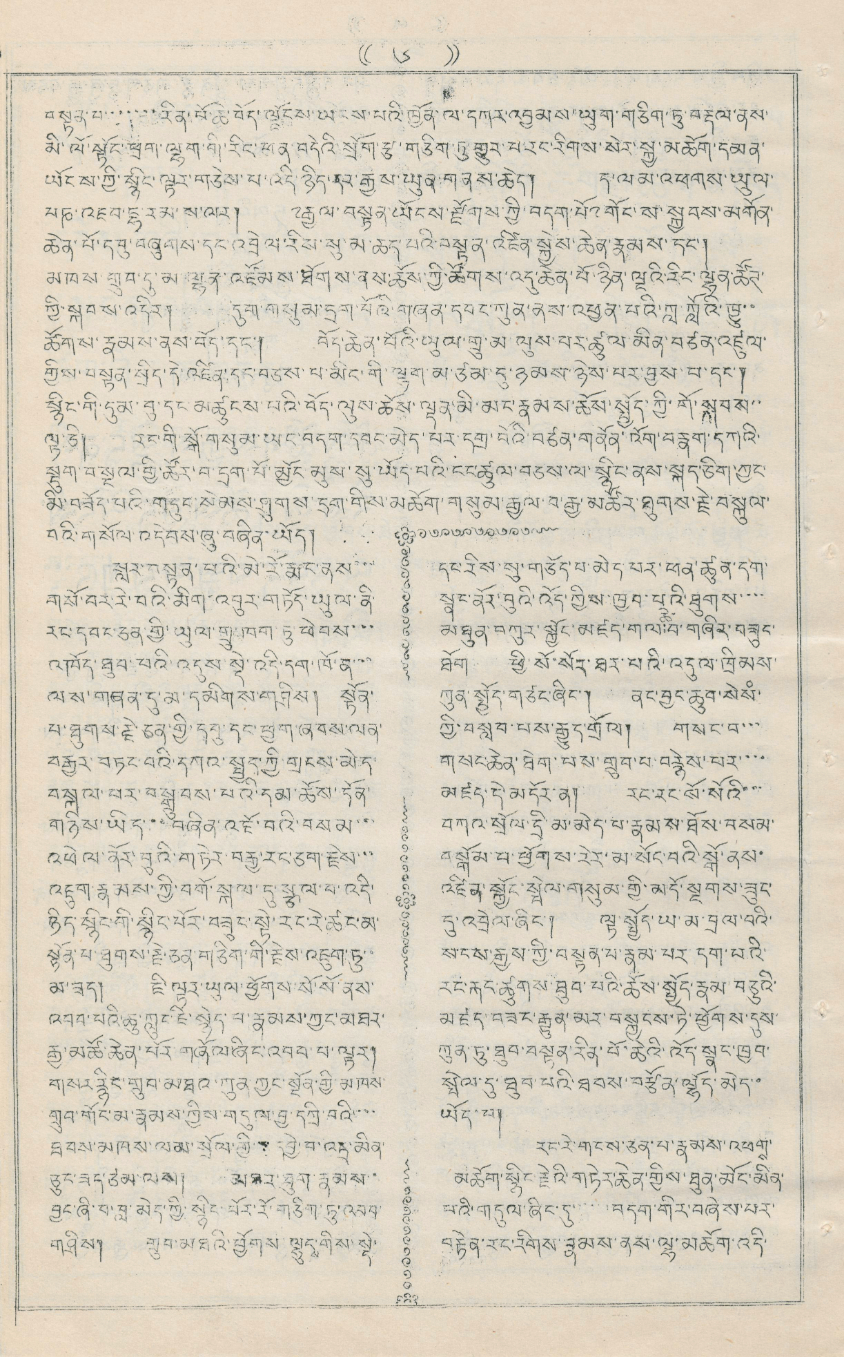((༦ ))
བསྟན་པ་་་་་་་རིན་པོ་ཆེ་བོད་ལྗོངས་ཡངས་པའི་ཁྱོན་ལ་དཀར་འབྱམས་ཡུག་གཅིག་ཏུ་བརྡུལ་ནས་
མི་ལོ་སྟོང་ཕྲག་ལྷག་གི་རིང་ཕན་བདེའི་སྲོག་རྩ་གཅིག་ཏུ་གྱུར་པ་རང་རིགས་སེར་སྐྱ་མཆོག་དམན་
ཡོངས་ཀྱི་སྙིང་ལྟར་གཅེས་པ་འདི་ཉིད་དར་རྒྱས་ཡུན་གནས་ཆེད། ད་ལམ་འཕགས་ཡུལ་
ལཎ་འཇབ་དྷ་རམ་ས་ལར། ༸རྒྱལ་བསྟན་ཡོངས་རྫོགས་ཀྱི་བདག་པོ་༸གོང་ས་སྐྱབས་མགོན་
ཆེན་པོ་དབུ་བཞུགས་དང་འབྲེལ་རིས་སུ་མ་ཆད་པའི་བསྟན་འཛིན་སྐྱེས་ཆེན་རྣམས་དང་།
མཁས་གྲུབ་དུ་མ་ལྷན་འཛོམས་ཐོགས་ནས་ཆོས་ཀྱི་ཚོགས་འདུ་ཆེན་པོ་ཉིན་ལྔའི་རིང་ལྷན་ཚོཊ་
ཀྱི་སྐབས་འདིར། དུག་གསུམ་དྲག་པོའི་གཞན་དབང་ཀུན་ནས་འཕྱན་པའི་ཀླ་ཀློའི་ཁྱུ་་
ཚོགས་རྣམས་ནས་བོད་དང་། བོད་ཆེན་པོའི་ཡུལ་གྲུ་མ་ལུས་པར་ཚུལ་མིན་བཙན་འཛུལ་
གྱིས་བསྟན་སྲིད་དེ་འཛིན་དང་བཅས་པ་མིང་གི་ལྷག་མ་ཙམ་དུ་ཉམས་ཉེས་པར་བྱས་པ་དང་།
སྙིང་གི་ཏུམ་བུ་དང་མཚུངས་པའི་བོད་ལུས་ཆོས་ལྡན་མི་མང་རྣམས་ཆོས་སྤྱོད་ཀྱི་གོ་སྐབས་་
ལྟ་ཅི། རང་གི་སྒོ་གསུམ་ཡང་བདག་དབང་མེད་པར་དགྲ་བོའི་བཙན་གནོན་འོག་བརྣག་དཀའི་
སྦུག་བསྔལ་གྱི་ཚོར་བ་དྲག་པོ་མྱོང་མུས་སུ་ཡོད་པའི་ངང་ཚུལ་བཅས་ལ་སྙིང་ནས་སྐད་ཅིག་ཀྱང་
མི་བཟོད་པའི་གདུང་སེམས་ཤུགས་དྲག་གིས་མཆོག་གསུམ་རྒྱལ་བ་རྒྱ་མཚོའི་ཐུགས་རྗེ་བསྐུལ་
བའི་གསོལ་འདེབས་ཞུ་བཞིན་ཡོད།
སླར་བསྟན་པའི་མེ་རོ་རྨང་ནས་་་
གསོ་བར་རེ་བའི་མིག་འབུར་གཏོད་ཡུལ་ནི།
རང་དབང་ཅན་གྱི་ཡུལ་གྲུ་ཁག་ཏུ་ཕེབས་་་
འཁོད་ཐུབ་པའི་འདུས་སྡེ་འདི་དག་ཁོ་ན་་་
ལས་གཞན་དུ་མི་དམིགས་གཤིས། སྟོན་
པ་ཐུགས་རྗེ་ཅན་གྱི་དགུ་དང་ཕྱག་ཞབས་ལེན་
བརྒྱར་བཏང་བའི་དཀའ་སྤྱད་ཀྱི་གྲངས་མེད་
བསྐལ་བར་བསྒྲུབས་པའི་དམ་ཆོས་དོན་
གཉིས་ཡིད་་་བཞིན་འཇོ་བའི་བསམ་་་
འཕེལ་ནོར་བུའི་གཏེར་བརྒྱ་རང་ཅིག་རྗེས་་་
འཇུག་རྣམས་ཀྱི་བགོ་སྐལ་དུ་སྩལ་བ་འདི་
ཉིད་སྙིང་གི་སྙིང་པོར་བཟུང་སྟེ་རང་རེ་ཚང་མ་
སྟོན་པ་ཐུགས་རྗེ་ཅན་གཅིག་གི་རྗེས་འཇུག་ཏུ་་
མ་ཟད། ཇི་ལྟར་ཡུལ་ཕྱོགས་སོ་སོ་ནས་
འབབ་པའི་ཆུ་ཀླུང་ཇི་སྙེད་པ་རྣམས་ཀྱང་མཐར་
རྒྱ་མཚོ་ཆེན་པོར་གཞོལ་ཞིང་འབབ་པ་ལྟར།
གསར་རྙིང་གྲུབ་མཐའ་ཀུན་ཀྱང་སྔོན་གྱི་མཁས་
གྲུབ་གོང་མ་རྣམས་ཀྱིས་གདུལ་བྱ་དཀྲི་བའི་་་
ཐབས་མཁས་ལམ་སྲོལ་གྱི་ དབྱེབ་འདྲ་མིན་
ཅུང་ཟད་ཙམ་ལས། མཐབ་ཐུག་རྣམས་་
བྱང་ཞི་བ་བླ་མེད་ཀྱི་སྙིང་པོར་རོ་གཅིག་ཏུ་འབབ་
གཤིས། གྲུབ་མཐའི་ཕྱོགས་ལྷུངྶ་གིས་སྡེ་
དང་རིས་སུ་གཅོད་པ་མེད་པར་ཕན་ཚུན་དག་
སྣང་ནོར་བུའི་འོད་ཀྱིས་ཁྱབ་པའི་ཐུགས་་་་
མཐུན་བཀུར་སྐྱོང་མཛད་གལ་ཆེ་བ་གཞིར་བཟུང་
ཐོག ཕྱི་སོ་སོར་ཐར་པའི་འདུལ་ཁྲིམས་
ཀུན་སྤྱོད་གཙང་ཞིང་། ནང་བྱང་ཆུབ་སེསཾ་
ཀྱི་བསླབ་པས་རྒྱུད་གྲོལ། གསང་བ་་་
གསང་ཆེན་ཐེག་པས་གྲུབ་པ་བརྙེས་པར་་་་
མཛད་དེ་མདོར་ན། རང་རང་སོ་སོའི་་་
བཀའ་སྲོལ་དྲི་མ་མེད་པ་རྣམས་ཐོས་བསམ་
བསྒོམ་པ་ཕྱོགས་རེར་མ་སོང་བའི་སྒོ་ནས་
འཛིན་སྐྱོང་སྦེལ་གསུམ་གྱི་མདོ་སྔགས་ཟུང་
དུ་འབྲེལ་ཞིང་། ལྟ་སྤྱོད་ཡ་མ་བྲལ་བའི་
སངས་རྒྱས་ཀྱི་བསྟན་པ་རྣམ་པར་དག་པའི་
རང་རྐང་ཚུགས་ཐུབ་པའི་ཆོས་སྤྱོད་རྣམ བཅུའི་
མཛད་བཟང་རྒྱུན་མར་བསྐྱངས་ཏེ་ཕྱོགས་དུས་
ཀུན་ཏུ་ཐུབ་བསྟན་རིན་པོ་ཆེའི་འོད་སྒྲུང་ཁྱབ་
སྤེལ་དུ་ཐུབ་པའི་ཐབས་བརྩོན་ལྷོད་མེད་་
ཡོད་པ།
རང་རེ་གངས་ཅན་པ་རྣམས་འཕགྶ་
མཆོག་སྙིང་རྗེའི་གཏེར་ཆེན་གྱིས་ཐུན་མོང་མིན་
པའི་གདུལ་ཞིང་དུ་ བདག་གིར་བཞེས་པར་
བརྟེན་རང་རིགས་རྣམས་ནས་ལྷ་མཆོག་འདི་
